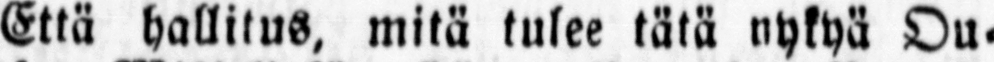Että hallitus, mitä tulee tätä nykyä Ou-
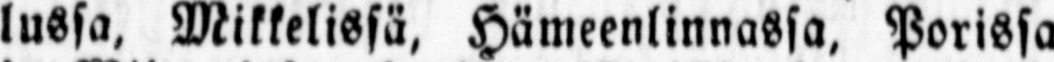lussa, Mikkelissä, Hämeenlinnassa, Porissa
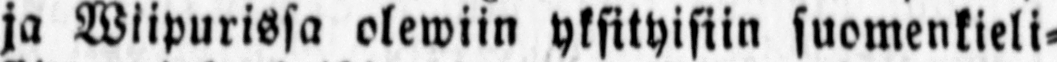ja Wiipurissa olewiin yksityisiin suomenkieli-
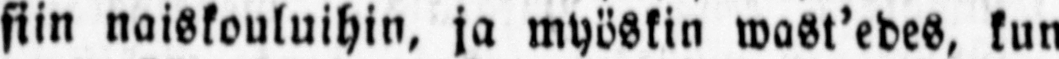siin naiskouluihin, ja myöskin wast'edes, kun
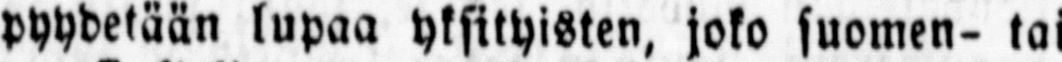pyydetään lupaa yksityisten, joko suomen- tai
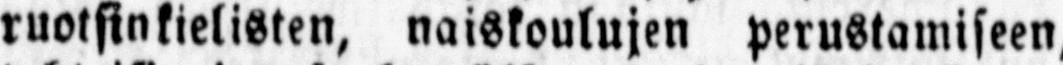ruotsinkielisten, naiskoulujen perustamiseen,
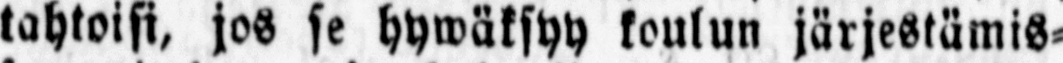tahtoisi, jos se hywäksyy koulun järjestämis-
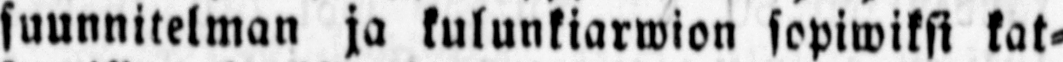suunnitelman ja kulunkiarwion sopiwiksi kat-
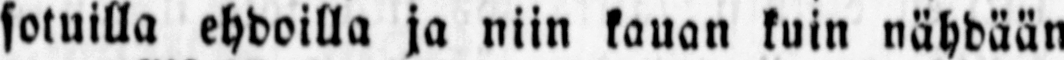sotuilla ehdoilla ja niin kauan kuin nähdään
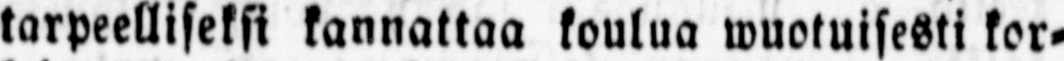tarpeelliseksi kannattaa koulua wuotuisesti kor-
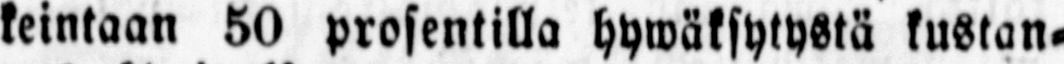keintaan 50 prosentilla hywäksytystä kustan-
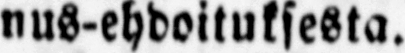nus-ehdoituksesta.
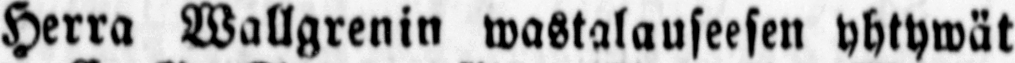Herra Wallgrenin wastalauseesen yhtywät
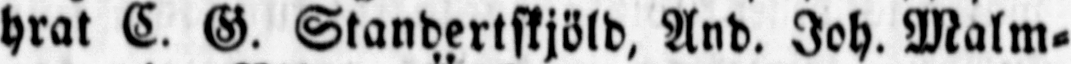hrat C. G. Standertskjöld. And. Joh. Malm-
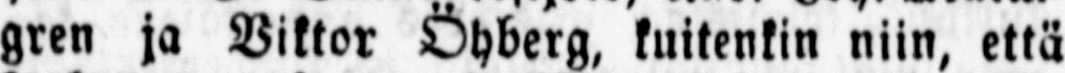gren ja Viktor Öhberg, kuitenkin niin, että
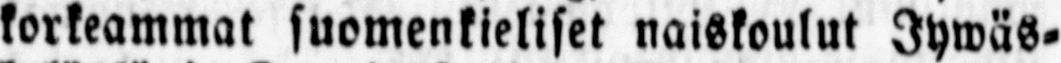korkeammat suomenkieliset naiskoulut Jywäs-
